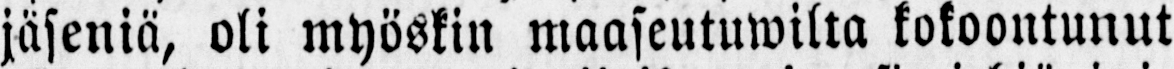jäseniä, oli myöskin maaseutuwilta kokoontunut
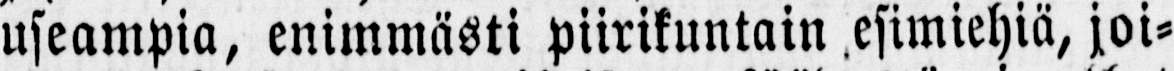useampia, enimmästi piirikuntain esimiehiä, joi-
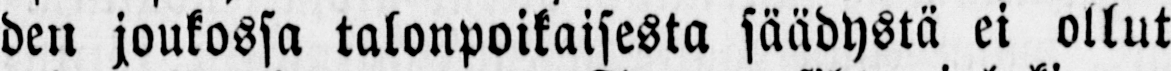den joukossa talonpoikaisesta säädystä ei ollut
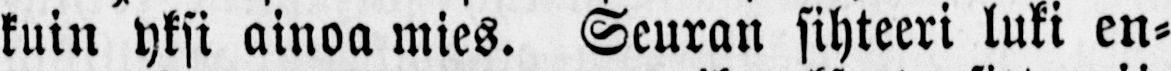kuin yksi ainoa mies. Seuran sihteeri luki en-
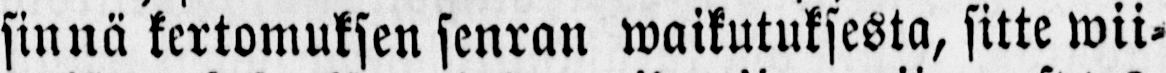sinnä kertomuksen senran waikutuksesta, sitte wii-
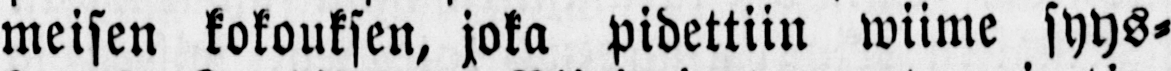meisen kokouksen, joka pidettiin wiime syys-
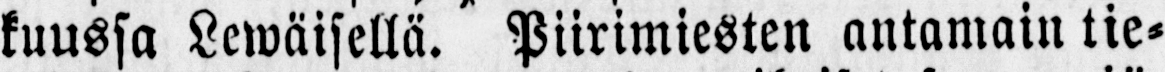kuussa Lewäisellä. Piirimiesten antamain tie-
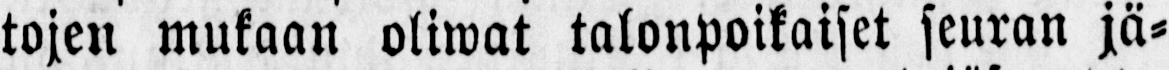tojen mukaan oliwat talonpoikaiset seuran jä-
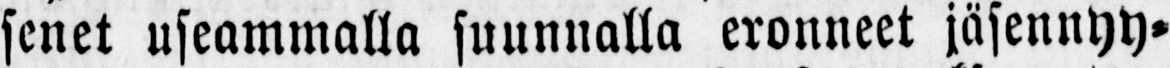senet useammalla suunnalla eronneet jäsennyy-
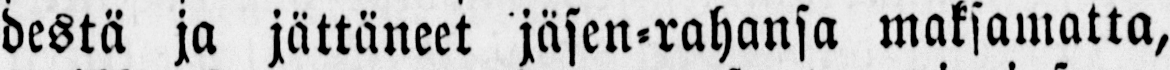destä ja jättäneet jäsen-rahansa maksamatta,
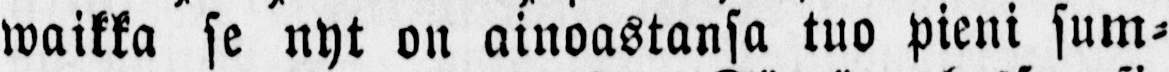waikka se nyt on ainoastansa tuo pieni sum-
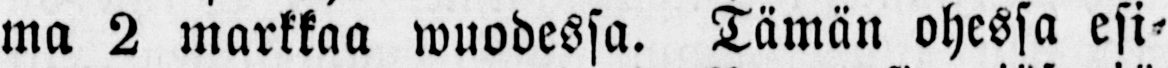ma 2 markkaa wuodessa. Tämän ohessa esi-
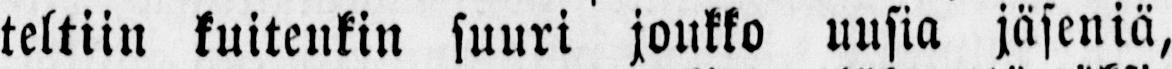teltiin kuitenkin suuri joukko uusia jäseniä,
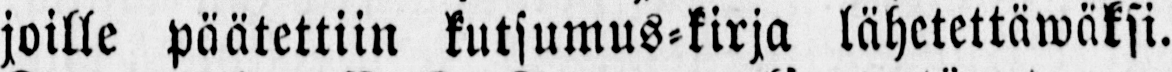joille päätettiin kutsumus-kirja lähetettäwäksi.
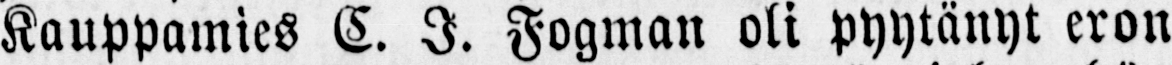Kauppamies C. I. Fogman oli pyytänyt eron
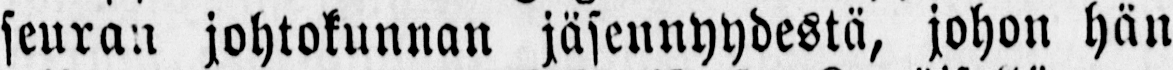seuran johtokunnan jäsennyydestä, johon hän
